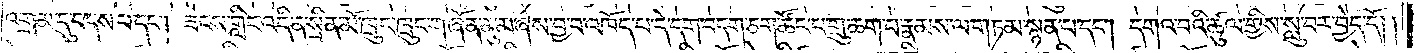འགྲམ་དུ་བདས་པ་དང༌། ཟངས་གླིང་འདི་ན་སྲིན་མོ་ཁྲུང་ཁྲུང་གཞོན་ནུ་མ་ཞེས་བྱ་བ་འཁོད་པ་དེ་དག་བདག་ཅག་ཚོང་པ་གྲུ་ཆག་པ་རྣམས་ལ་གཏམ་སྙན་པ་དང༌། དགའ་བའི་ཚུལ་གྱིས་སླུ་བར་བྱེད་དོ། །
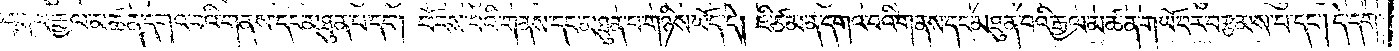དེ་དག་ལ་རྒྱལ་མཚན་དགའ་བའི་གནས་དང་མཐུན་པ་དང༌། ཕོངས་པའི་གནས་དང་མཐུན་པ་གཉིས་ཡོད་དེ། ཇི་ཙམ་ན་དགའ་བའི་གནས་དང་མཐུན་པའི་རྒྱལ་མཚན་གཡོ་བར་བརྩམས་པ་དང༌། དེ་དག་
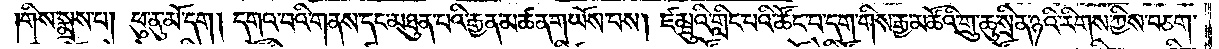གིས་སྨྲས་པ། ཕུ་ནུ་མོ་དག། དགའ་བའི་གནས་དང་མཐུན་པའི་རྒྱན་མཚན་གཡོས་པས། ཛམྦུའི་གླིང་པའི་ཚོང་པ་དག་གིས་རྒྱ་མཚོའི་གྲུ་ཆུ་སྲིན་ཉའི་རིགས་ཀྱིས་བཅག་
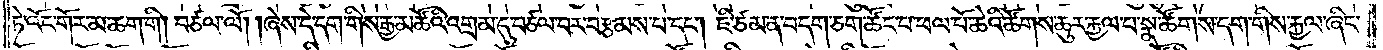ཏེ་འོང་གོར་མ་ཆག་གི། བཙལ་ལོ། །ཞེས་དེ་དག་གིས་རྒྱ་མཚོའི་འགྲམ་དུ་བཙལ་བར་བརྩམས་པ་དང༌། ཇི་ཙམ་ན་བདག་ཅག་ཚོང་པ་ཕལ་པོ་ཆེའི་ཚོགས་ཆུར་རྐྱལ་པ་སྣ་ཚོགས་དག་གིས་རྐྱལ་ཞིང་
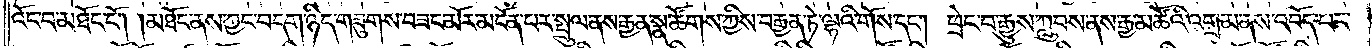འོང་བ་མཐོང་ངོ༌། །མཐོང་ནས་ཀྱང་བདག་ཉིད་གཟུགས་བཟང་མོར་མངོན་པར་སྤྲུལ་ནས་རྒྱན་སྣ་ཚོགས་ཀྱིས་བརྒྱན་ཏེ་ལྷའི་གོས་དང༌། ཕྲེང་བ་རྒྱུས་ཀླུབས་ནས་རྒྱ་མཚོའི་འགྲམ་ནས་འབོད་པར་
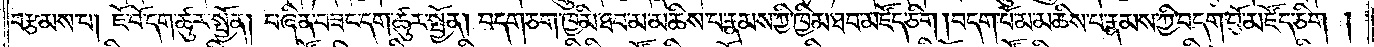བརྩམས་པ། ཇོ་བོ་དག་ཚུར་སྤྱོན། བཞིན་བཟང་དག་ཚུར་སྤྱོན། བདག་ཅག་ཁྱིམ་ཐབ་མ་མཆིས་པ་རྣམས་ཀྱི་ཁྱིམ་ཐབ་མཛོད་ཅིག །བདག་པོ་མ་མཆིས་པ་རྣམས་ཀྱི་བདག་པོ་མཛོད་ཅིག །
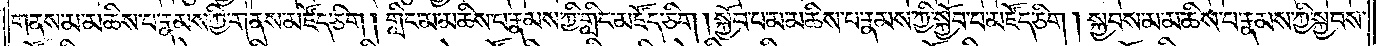གནས་མ་མཆིས་པ་རྣམས་ཀྱི་གནས་མཛོད་ཅིག །གླིང་མ་མཆིས་པ་རྣམས་ཀྱི་གླིང་མཛོད་ཅིག །སྐྱོབ་པ་མ་མཆིས་པ་རྣམས་ཀྱི་སྐྱོབ་པ་མཛོད་ཅིག །སྐྱབས་མ་མཆིས་པ་རྣམས་ཀྱི་སྐྱབས་
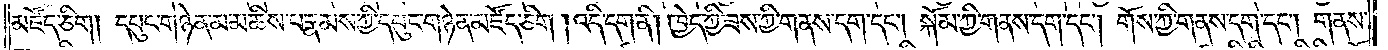མཛོད་ཅིག །དཔུང་གཉེན་མ་མཆིས་པ་རྣམས་ཀྱི་དཔུང་གཉེན་མཛོད་ཅིག །འདི་དག་ནི། ཁྱེད་ཀྱི་ཟས་ཀྱི་གནས་དག་དང༌། སྐོམ་གྱི་གནས་དག་དང༌། གོས་ཀྱི་གནས་དག་དང༌། གནས་
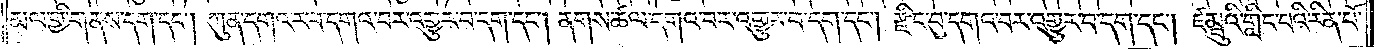མལ་གྱི་གནས་དག་དང༌། ཀུན་དགའ་ར་བ་དགའ་བར་འགྱུར་བ་དག་དང༌། ནགས་ཚལ་དགའ་བར་འགྱུར་བ་དག་དང༌། རྫིང་བུ་དགའ་བར་འགྱུར་བ་དག་དང༌། ཛམྦུའི་གླིང་པའི་རིན་པོ་
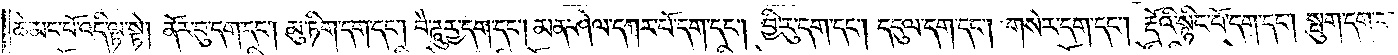ཆེ་མང་པོ་འདི་ལྟ་སྟེ། ནོར་བུ་དག་དང༌། མུ་ཏིག་དག་དང༌། བཻ་ཌཱུཪྻ་དག་དང༌། མན་ཤེལ་དཀར་པོ་དག་དང༌། བྱི་རུ་དག་དང༌། དངུལ་དག་དང༌། གསེར་དག་དང༌། རྡོའི་སྙིང་པོ་དག་དང༌། སྦུག་དག་དང་
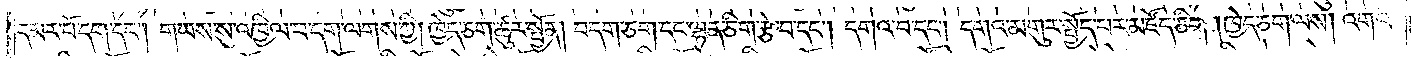དམར་པོ་དག་དང༌། གཡས་སུ་འཁྱིལ་བ་དག་ལགས་ཀྱི། ཁྱེད་ཅག་ཚུར་སྤྱོན། བདག་ཅག་དང་ལྷན་ཅིག་རྩེ་བ་དང༌། དགའ་བ་དང༌། དགའ་མགུར་སྤྱོད་པར་མཛོད་ཅིག །ཁྱེད་ཅག་ལས། འགའ་
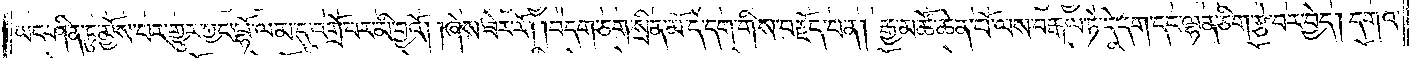ཡང་ཤིན་ཏུ་མྱོས་པར་གྱུར་ཀྱང་ལྷོ་ལམ་དུ་འགྲོ་བར་མི་བྱའོ། །ཞེས་ཟེར་རོ། །བདག་ཅག་སྲིན་མོ་དེ་དག་གིས་བརྗོད་པ་ན། རྒྱ་མཚོ་ཆེན་པོ་ལས་བརྒལ་ཏེ་དེ་དག་དང་ལྷན་ཅིག་རྩེ་བར་བྱེད། དགའ་
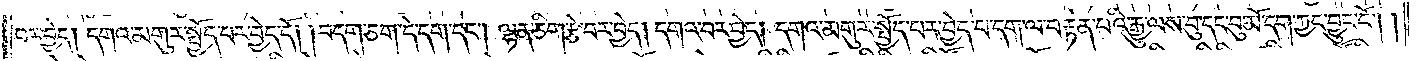བར་བྱེད། དགའ་མགུར་སྤྱོད་པར་བྱེད་དོ། །བདག་ཅག་དེ་དག་དང༌། ལྷན་ཅིག་རྩེ་བར་བྱེད། དགའ་བར་བྱེད། དགའ་མགུར་སྤྱོད་པར་བྱེད་པ་དག་ལ་བརྟེན་པའི་རྒྱུ་ལས་བུ་དང་བུ་མོ་དག་ཀྱང་བྱུང་ངོ༌། །
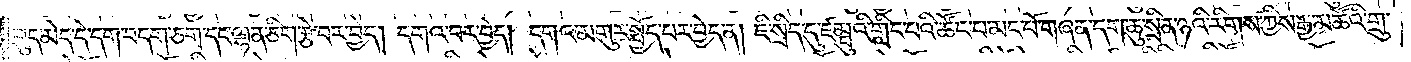བུད་མེད་དེ་དག་བདག་ཅག་དང་ལྷན་ཅིག་རྩེ་བར་བྱེད། དགའ་བར་བྱེད། དགའ་མགུར་སྤྱོད་པར་བྱེད་ན། ཇི་སྲིད་དུ་ཛམྦུའི་གླིང་པའི་ཚོང་པ་མང་པོ་གཞན་དག་ཆུ་སྲིན་ཉའི་རིགས་ཀྱིས་རྒྱ་མཚོའི་གྲུ་
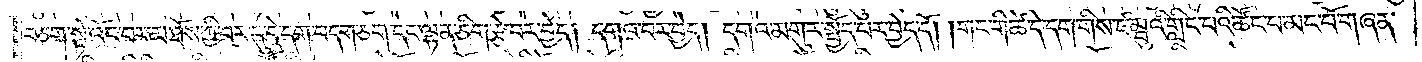བཅག་སྟེ་འོང་བར་མ་ཐོས་ཀྱི་བར་དུ་དེ་དག་བདག་ཅག་དང་ལྷན་ཅིག་རྩེ་བར་བྱེད། དགའ་བར་བྱེད། དགའ་མགུར་སྤྱོད་པར་བྱེད་དོ། །གང་གི་ཚེ་དེ་དག་གིས་ཛམྦུའི་གླིང་པའི་ཚོང་པ་མང་པོ་གཞན་
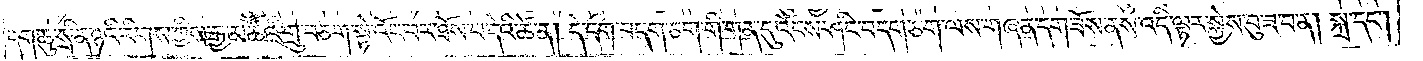དག་ཆུ་སྲིན་ཉའི་རིགས་ཀྱིས་རྒྱ་མཚོའི་གྲུ་བཅག་སྟེ་འོང་བར་ཐོས་པ་དེའི་ཚེ་ན། དེ་དག་བདག་ཅག་གི་གན་དུ་འོངས་ཤིང་བདག་ལས་གཞན་དག་ཟོས་ནས་འདི་ལྟས་སྐྱེས་བུ་ཟ་བ་ན། སྐྲ་དང༌།
